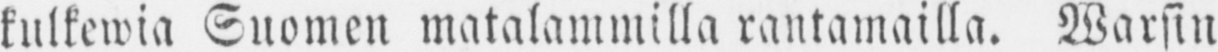kulkewia Suomen matalammilla rantamailla. Warsin
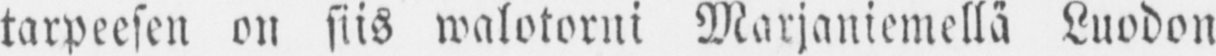tarpeesen on siis walotorni Marjaniemellä Luodon
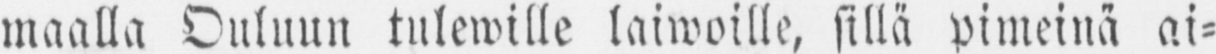maalla Ouluun tulewille laiwoille, sillä pimeinä ai-
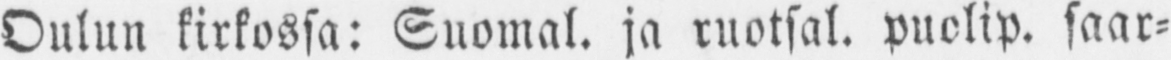Oulun kirkossa: Suomal. ja ruotsal. puolip. saar-
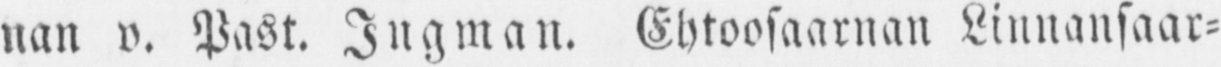nan v. Past. Ingman. Ehtoosaarnan Linnansaar-
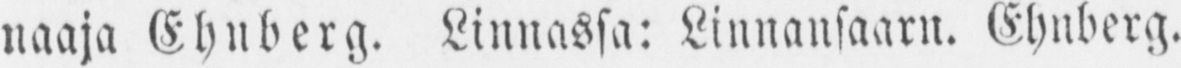naaja Ehnberg. Linnassa: Linnansaarn. Ehnberg.
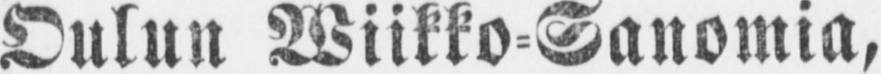Oulun Wiikko-Sanomia,
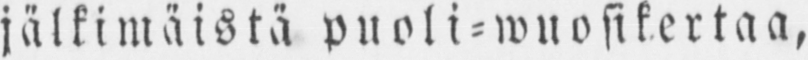jälkimäistä puoli - wuosikertaa,
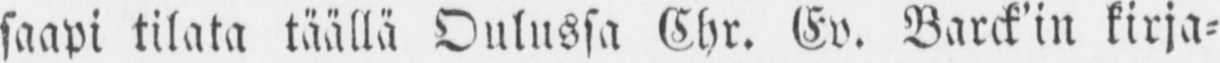saapi tilata täällä Oulussa Chr. Ev. Barck'in kirja-
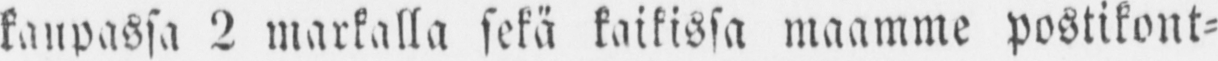kaupassa 2 markalla sekä kaikissa maamme postikont-
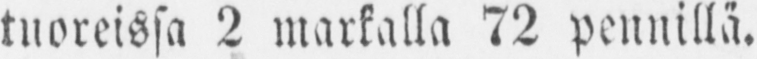tuoreissa 2 markalla 72 pennillä.
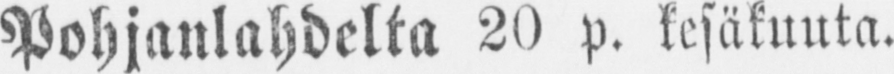Pohjanlahdelta 20 p. kesäkuuta.
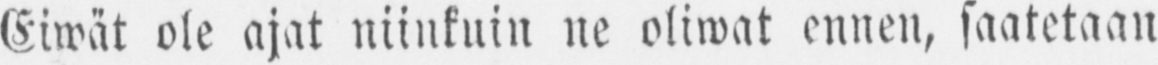Eiwät ole ajat niinkuin ne oliwat ennen, saatetaan
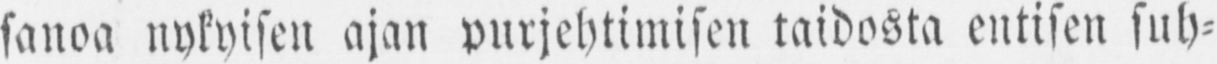sanoa nykyisen ajan purjeytimisen taidosta entisen suh-
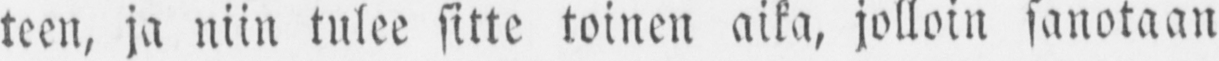teen, ja niin tulee sitte toinen aika, jolloin sanotaan
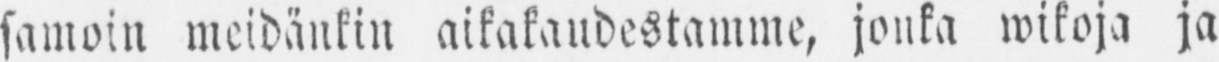samoin meidänkin aikakaudestamme, jonka wikoja ja
